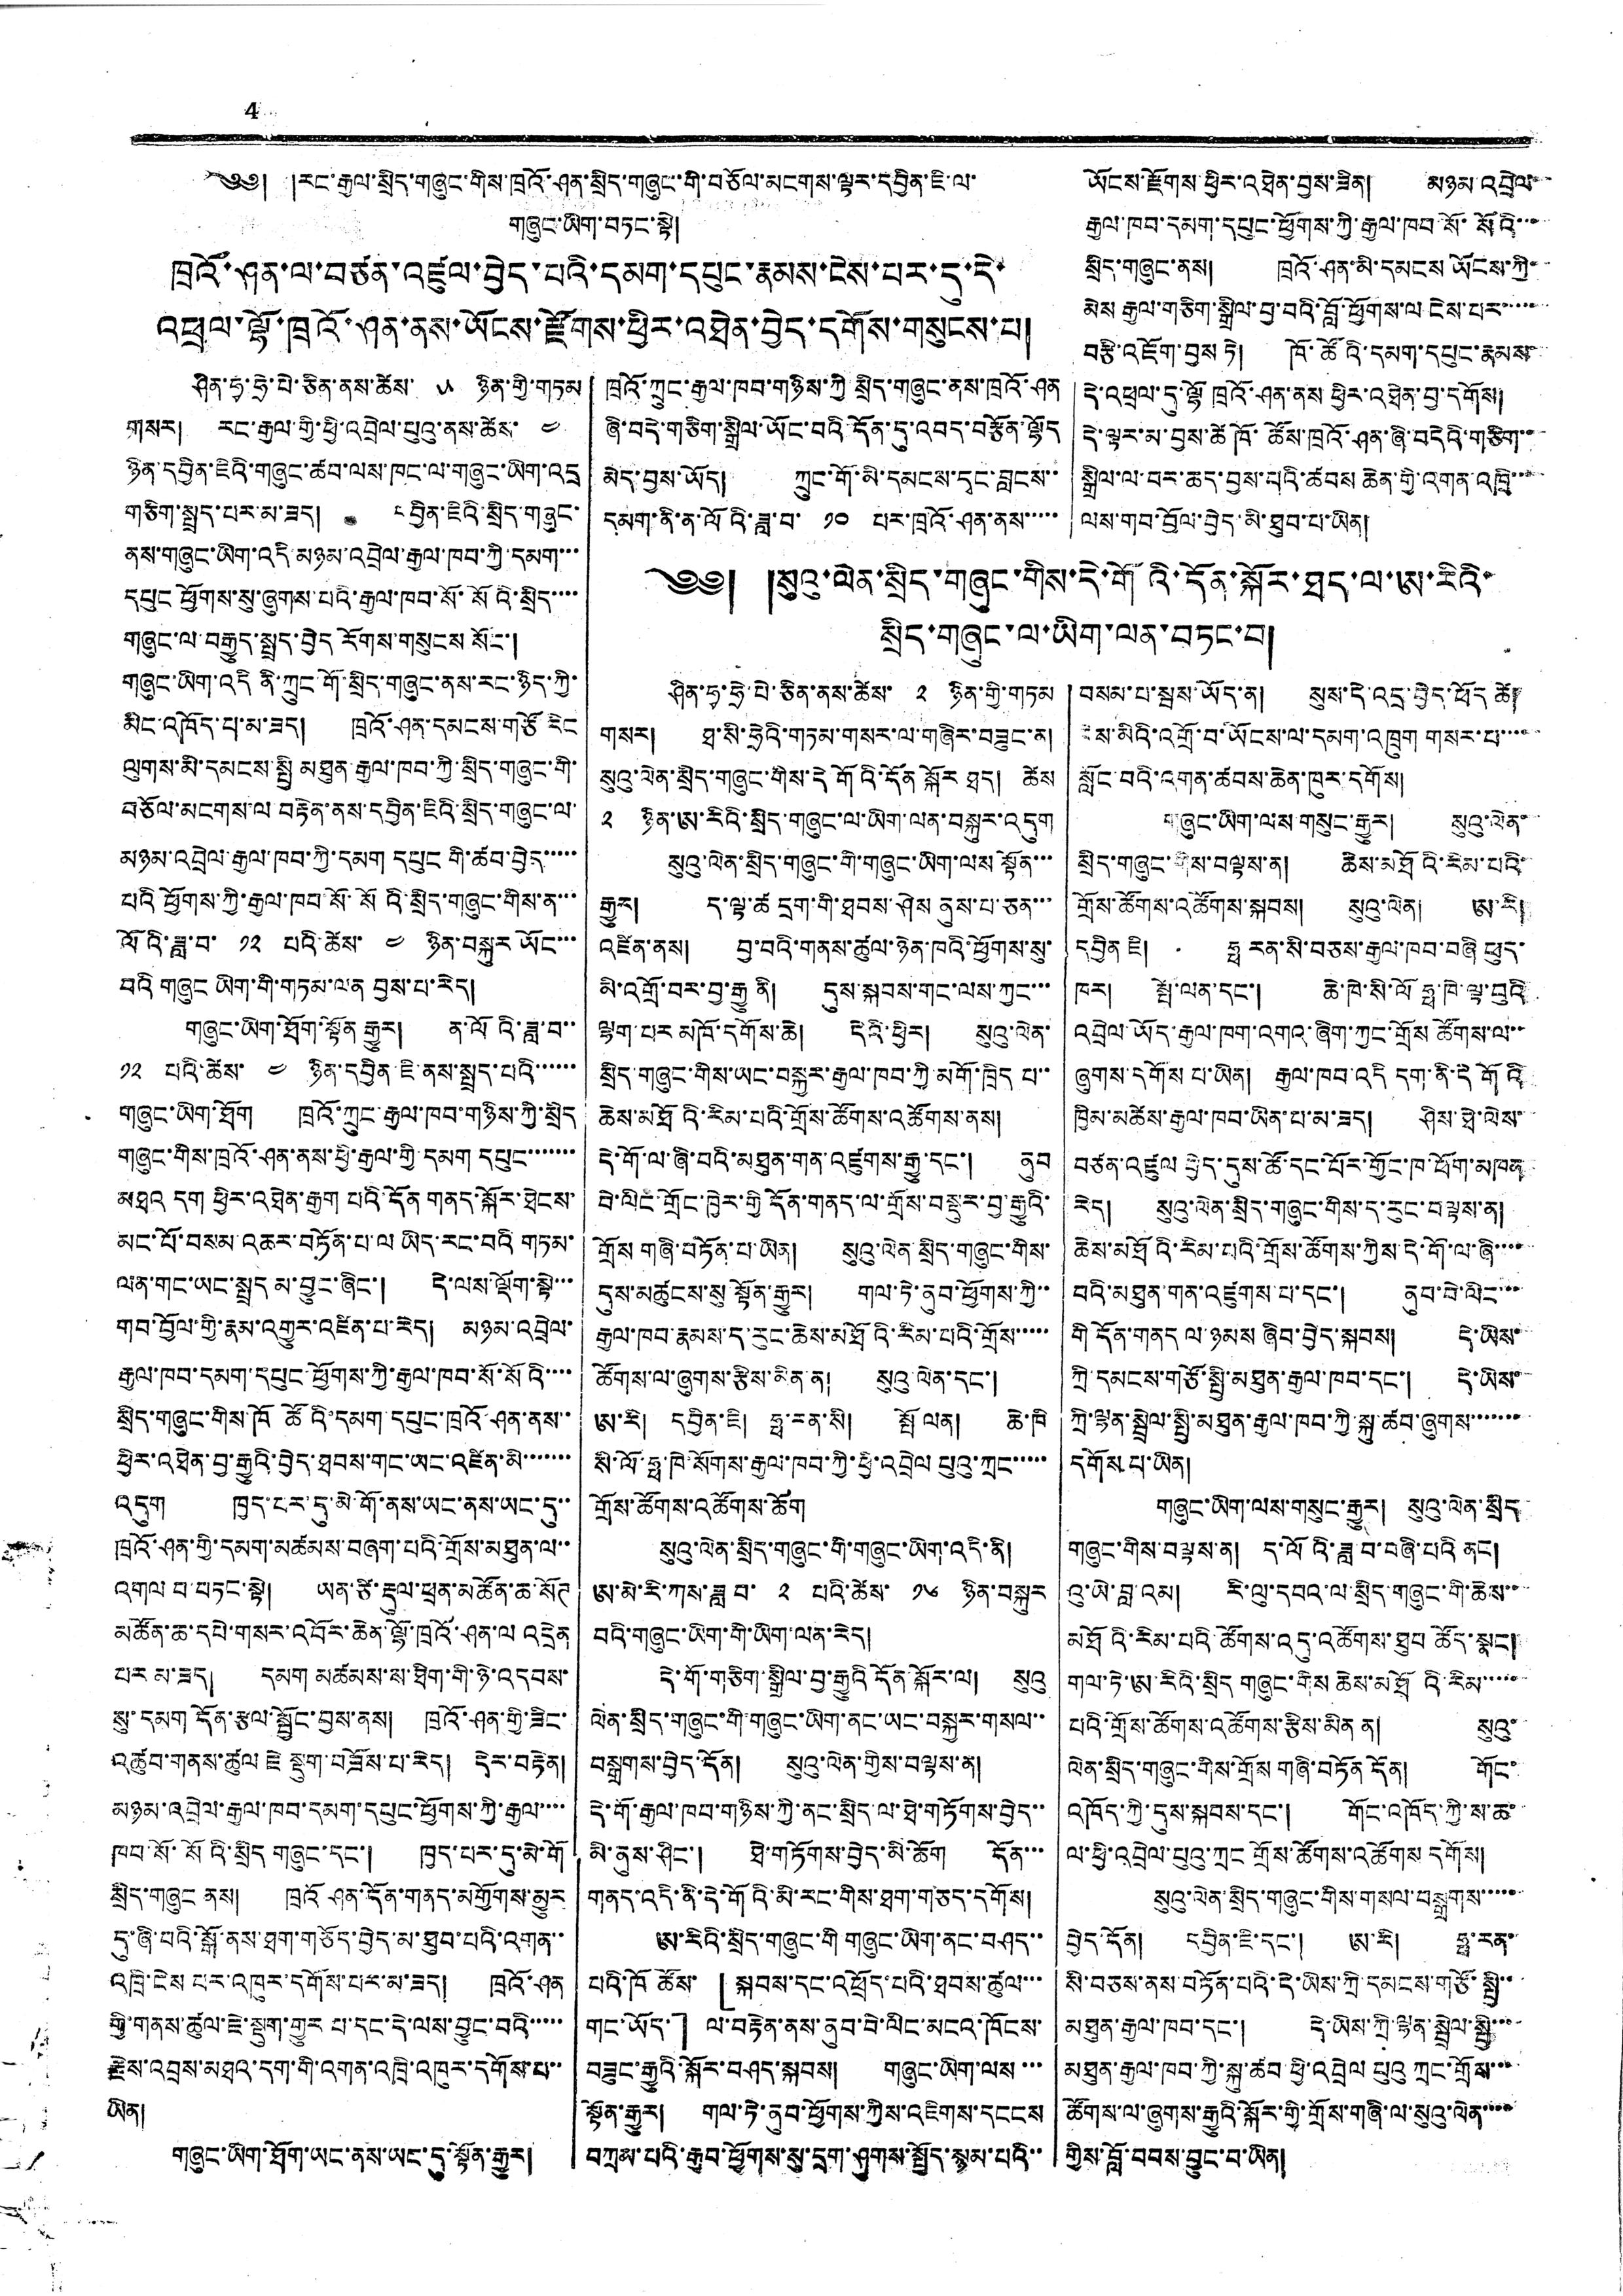4
༄༅། །རང་རྒྱལ་སྲིད་གཞུང་གིས་ཁྲའོ་ཤན་སྲིད་གཞུང་གི་བཅོལ་མངགས་ལྟར་དབྱིན་ཇི་ལ་
གཞུང་ཡིག་བཏང་སྟེ།
ཁྲའོ་ཤན་ལ་བཙན་འཛུལ་བྱེད་པའི་དམག་དཔུང་རྣམས་ངེས་པར་དུ་དེ་
འཕྲལ་ལྷོ་ཁྲའོ་ཤན་ནས་ཡོངས་རྫོགས་ཕྱིར་འཐེན་བྱེད་དགོས་གསུངས་པ།
ཤིན་ཧྭ་ཧྲེ་པེ་ཅིན་ནས་ཚེས་ ༥ ཉིན་གྱི་གཏམ
གསར། རང་རྒྱལ་གྱི་ཕྱི་འབྲེལ་པུའུ་ནས་ཚེས་ ༤
ཉིན་དབྱིན་ཇིའི་གཞུང་ཚབ་ལས་ཁང་ལ་གཞུང་ཡིག་འདྲ
གཅིག་སྤྲད་པར་མ་ཟད། དབྱིན་ཇིའི་སྲིད་གཞུང་
ནས་གཞུང་ཡིག་འདི མཉམ་འབྲེལ་རྒྱལ་ཁབ་ཀྱི་དམག་་་
དཔུང ཕྱོགས་སུ་ཞུགས་པའི་རྒྱལ་ཁབ་སོ་སོའི་སྲིད་་་་
གཞུང་ལ་བརྒྱུད་སྤྲད་བྱེད རོགས་གསུངས སོང་།
གཞུང་ཡིག་འདི ནི་ཀྲུང་གོ་སྲིད་གཞུང་ནས་རང་ཉིད་ཀྱི་
མིང་འཁོད་པ་མ་ཟད། ཁྲའོ་ཤན་དམངས་གཙོ རིང
ལུགས་མི་དམངས་སྤྱི མཐུན་རྒྱལ་ཁབ་ཀྱི་སྲིད་གཞུང་གི་
བཅོལ་མངགས་ལ བརྟེན་ནས་དབྱིན་ཇིའི་སྲིད་གཞུང་ལ་
མཉམ་འབྲེལ་རྒྱལ་ཁབ་ཀྱི་དམག དཔུང གི་ཚབ་བྱེད་་་་་
པའི ཕྱོགས་ཀྱི་རྒྱལ་ཁབ་སོ་སོའི་སྲིད་གཞུང་གིས་ན་་་
ལོའི་ཟླ་བ་ ༡༢ པའི་ཚེས་ ༤ ཉིན་བསྐུར ཡོང་་་
བའི གཞུང ཡིག་གི་གཏམ་ལན བྱས་པ་རེད།
གཞུང་ཡིག་ཐོག་སྟོན རྒྱུར། ན་ལོའི་ཟླ་བ་་
༡༢ པའི་ཚེས་ ༤ ཉིན་དབྱིན ཇི་ནས་སྤྲད་པའི་་་་་་
གཞུང་ཡིག་ཐོག ཁྲའོ་ཀྲུང་རྒྱལ་ཁབ་གཉིས་ཀྱི་སྲིད
གཞུང་གིས་ཁྲའོ་ཤན་ནས་ཕྱི་རྒྱལ་གྱི་དམག དཔུང་་་་་་་
མཐའ དག ཕྱིར་འཐེན་རྒྱག པའི་དོན གནད་སྐོར་ཐེངས་
མང་པོ་བསམ་འཆར་བཏོན་པ་ལ ཡིད་རང་བའི གཏམ་
ལན་གང་ཡང་སྤྲད མ་བྱུང་ཞིང་། དེ་ལས་ལྡོག་སྟེ་་་
གབ་བྱོལ་གྱི་རྣམ་འགྱུར་འཛིན་པ་རེད། མཉམ་འབྲེལ་
རྒྱལ་ཁབ་དམག་དཔུང ཕྱོགས་ཀྱི་རྒྱལ་ཁབ་སོ་སོའི་་་་
སྲིད་གཞུང་གིས་ཁོ ཚོའི་དམག དཔུང་ཁྲའོ ཤན་ནས་་
ཕྱིར་འཐེན་བྱ་རྒྱུའི་བྱེད་ཐབས་གང་ཡང་འཛིན་མི་་་་་་་
འདུག ཁྱད་པར་དུ་མེ་གོ་ནས་ཡང་ནས་ཡང་དུ་་
ཁྲའོ་ཤན་གྱི་དམག་མཚམས་བཞག་པའི་གྲོས་མཐུན་ལ་་
འགལ བ བཏང་སྟེ། ཡན་ཙི་རྡུལ་ཕྲན་མཚོན་ཆ་སོཊ
མཚོན་ཆ་དཔེ་གསར་འབོར་ཆེན་ལྷོ་ཁྲའོ་ཤན་ལ འདྲེན
པར མ་ཟད། དམག མཚམས་ས་ཐིག་གི་ཉེ་འདབས་
སུ་དམག དོན་རྩལ་སྦྱོང་བྱས་ནས། ཁྲའོ་ཤན་གྱི་ཟིང་
འཚུབ་གནས་ཚུལ ཇེ སྡུག་བཟོས་པ་རེད། དེར་བརྟེན།
མཉམ་འབྲེལ་རྒྱལ་ཁབ་དམག་དཔུང་ཕྱོགས་ཀྱི་རྒྱལ་་་་
ཁབ་སོ་སོའི་སྲིད གཞུང་དང་། ཁྱད་པར་དུ་མེ་གོ
སྲིད་གཞུང ནས། ཁྲའོ ཤན་དོན་གནད་མགྱོགས་མྱུར
དུ་ཞི་བའི་སྒོ་ནས་ཐག་གཅོད་བྱེད་མ་ཐུབ་པའི་འགན་་
འཁྲི་ངེས པར་འཁུར་དགོས་པར་མ་ཟད། ཁྲའོ་ཤན
གྱི་གནས་ཚུལ་ཇེ་སྡུག་གྱུར པ་དང་དེ་ལས་བྱུང་བའི་་་་་
རྗེས་འབྲས་མཐའ་དག་གི་འགན་འཁྲི་འཁུར་དགོས་པ་་
ཡིན།
གཞུང་ཡིག་ཐོག་ཡང་ནས་ཡང་དུ་སྟོན་རྒྱུར།
ཁྲའོ་ཀྲུང་རྒྱལ་ཁབ་གཉིས་ཀྱི སྲིད་གཞུང་ནས་ཁྲའོ་ཤན
ཞི་བདེ་གཅིག་སྒྲིལ་ཡོང་བའི་དོན་དུ་འབད་བརྩོན་ལྷོད
མེད་བྱས་ཡོད། ཀྲུང་གོ་མི་དམངས་དྭང་བླངས་་
དམག་ནི་ན་ལོའི་ཟླ་བ་ ༡༠ པར་ཁྲའོ་ཤན་ནས་་་་་
ཡོངས་རྫོགས ཕྱིར་འཐེན་བྱས་ཟིན། མཉམ འབྲེལ་་
རྒྱལ་ཁབ་དམག་དཔུང་ཕྱོགས་ཀྱི་རྒྱལ་ཁབ་སོ་སོའི་་་
སྲིད་གཞུང་ནས། ཁྲའོ་ཤན་མི་དམངས ཡོངས་ཀྱི་
མེས རྒྱལ་གཅིག་སྒྲིལ་བྱ་བའི་བློ་ཕྱོགས་ལ ངེས་པར་་་་་་་
བརྩི་འཇོག་བྱས ཏེ། ཁོ་ཚོའི་དམག་དཔུང་རྣམས་་
དེ་འཕྲལ་དུ་ལྷོ ཁྲའོ་ཤན་ནས ཕྱིར་འཐེན་བྱ་དགོས།
དེ་ལྟར་མ་བྱས་ཚེ ཁོ་ཚོས་ཁྲའོ་ཤན་ཞི་བདེའི་གཅིག་་
སྒྲིལ་ལ་བར་ཆད་བྱས་པའི་ཚབས ཆེན་གྱི་འགན་འཁྲི་་་་
ལས་གབ་བྱོལ་བྱེད་མི་ཐུབ་པ་ཡིན།
༄༅། །སུའུ་ལེན་སྲིད་གཞུང་གིས་དེ་གོའི་དོན་སྐོར་ཐད་ལ་ཨ་རིའི་
སྲིད་གཞུང་ལ་ཡིག་ལན་བཏང་བ།
ཤིན་ཧྭ་ཧྲེ་པེ་ཅིན་ནས་ཚེས་ ༢ ཉིན་གྱི་གཏམ
གསར། ཐ་སི་ཧྲེའི་གཏམ་གསར་ལ་གཞིར་བཟུང་ན།
སུའུ་ལེན་སྲིད་གཞུང་གིས་དེ གོའི་དོན སྐོར ཐད། ཚེས
༢ ཉིན་ཨ་རིའི་སྲིད་གཞུང་ལ་ཡིག་ལན་བསྐུར་འདུག
སུའུ་ལེན་སྲིད་གཞུང་གི་གཞུང་ཡིག་ལས སྟོན་་་
རྒྱུར། ད་ལྟ་ཚ དྲག་གི་ཐབས་ཤེས ནུས་པ་ཅན་་་
འཛིན་ནས། བྱ་བའི་གནས་ཚུལ་ཉེན་ཁའི་ཕྱོགས་སུ་
མི་འགྲོ་བར་བྱ་རྒྱུ ནི། དུས་སྐབས་གང་ལས་ཀྱང་་་
ལྷག་པར མཁོ་དགོས་ཆེ། དེའི་ཕྱིར། སུའུ་ལེན་
སྲིད་གཞུང་གིས་ཡང་བསྐྱར་རྒྱལ་ཁབ་ཀྱི་མགོ་ཁྲིད པ་་
ཆེས་མཐོའི་རིམ་པའི་གྲོས་ཚོགས་འཚོགས་ནས།
དེ་གོ་ལ་ཞི་བའི་མཐུན་གན་འཛུགས་རྒྱུ་དང་། ནུབ
བེ་ལིང་གྲོང་ཁྱེར་གྱི དོན་གནད་ལ་གྲོས་བསྡུར་བྱ་རྒྱུའི་
གྲོས གཞི་བཏོན་པ་ཡིན། སུའུ་ལེན་སྲིད་གཞུང་གིས་
དུས་མཚུངས་སུ སྟོན་རྒྱུར། གལ་ཏེ་ནུབ་ཕྱགས་ཀྱི་་
རྒྱལ་ཁབ་རྣམས་ད་རུང་ཆེས་མཐོའི་རིམ་པའི་གྲོས་་་་་
ཚོགས་ལ་ཞུགས་རྩིས་མིན་ན། སུའུ ལེན་དང་།
ཨ་རི། དབྱིན་ཇི། ཧྥ་རན་སི། སྤོ ལན། ཆེ་ཁི
སི་ལོ་ཧྥ་ཁེ་སོགས་རྒྱལ་ཁབ་ཀྱི་ཕྱི་འབྲེལ པུའུ་ཀྲང་་་་་
གྲོས་ཚོགས་འཚོགས་ཆོག
སུའུ་ལེན་སྲིད་གཞུང་གི་གཞུང་ཡིག་འདི་ནི།
ཨ་མེ་རི་ཀས་ཟླ་བ་ ༢ པའི་ཚེས་ ༡༦ ཉིན་བསྐུར
བའི་གཞུང་ཡིག་གི་ཡིག་ལན་རེད།
དེ་གོ་གཅིག་སྒྲིལ་བྱ་རྒྱུའི དོན་སྐོར་ལ། སུའུ
ལེན་སྲིད་གཞུང་གི་གཞུང་ཡིག་ནང་ཡང་བསྐྱར་གསལ་་
བསྒྲགས་བྱེད་དོན། སུའུ་ལེན་གྱིས་བལྟས་ན།
དེ་གོ་རྒྱལ་ཁབ་གཉིས་ཀྱི་ནང་སྲིད་ལ་ཐེ་གཏོགས་བྱེད་་
མི་ནུས་ཤིང་། ཐེ་གཏོགས་བྱེད་མི་ཆོག དོན་་་
གནད་འདི་ནི་དེ་གོའི་མི་རང་གིས་ཐག་གཅད་དགོས།
ཨ་རིའི་སྲིད་གཞུང་གི གཞུང་ཡིག་ནང་བཤད་་
པའི་ཁོ ཚོས་ 「སྐབས་དནག་འཕྲོད་པའི་ཐབས་ཚུལ་་་
གང་ཡོད་」 ལ་བརྟེན་ནས་ནུབ་བེ་ལིང་མངའ་ཁོངས་
བཟུང་རྒྱུའི་སྐོར་བཤད་སྐབས། གཞུང་ཡིག་ལས་་་
སྟོན་རྒྱུར། གལ་ཏེ་ནུབ་ཕྱོགས་ཀྱིས་འཇིགས་དངངས
བཀྲམ་པའི་རྒྱབ་ཕྱོགས་སུ་དྲག་ཤུགས་སྤྱོད་སྙམ་པའི་་
བསམ་པ་སྦས་ཡོད་ན། སུས་དེ་འདྲ་བྱེད་ཕོད ཚེ།
ངེས་མིའི་འགྲོ་བ་ཡོངས་ལ་དམག་འཁྲུག གསར་པ་་་་
སློང་བའི་འགན་ཚབས་ཆེན་ཁུར་དགོས།
གཞུང་ཡིག་ལས་གསུང་རྒྱུར། སུའུ་ལེན་
སྲིད་གཞུང་གིས་བལྟས་ན། ཆེས་མཐོའི་རིམ་པའི་
གྲོས་ཚོགས་འཚོགས་སྐབས། སུའུ་ལེན། ཨ་རི།
དབྱིན ཇི། ཧྥ རན་སི་བཅས་རྒྱལ་ཁབ་བཞི ཕུད་
ཁར། སྤོ་ལན་དང་། ཆེ་ཁེ་སི་ལོ ཧྥ་ཁེ་ལྟ་བུའི
འབྲེལ་ཡོད་རྒྱལ་ཁག་འགའ་ཞིག་ཀྱང་གྲོས ཚོགས་ལ་་
ཞུགས་དགོས པ་ཡིན། རྒྱལ་ཁབ་འདི དག་ནི་དེ གོའི
ཁྱིམ་མཚེས་རྒྱལ་ཁབ་ཡིན་པ་མ་ཟད། ཤིས་ཐེ་ལེས་
བཙན་འཛུལ བྱེད་དུས་ཚོ་དང་པོར་གྱོང་ཁ་ཕོག་མཁན
རེད། སུའུ་ལེན་སྲིད་གཞུང་གིས་ད་རུང་བལྟས་ན།
ཆེས་མཐོའི་རིམ་པའི་གྲོས་ཚོགས་ཀྱིས་དེ་གོ་ལ་ཞི་་་་
བའི་མཐུན་གན་འཛུགས་པ་དང་། ནུབ་བེ་ལིང་་་
གི དོན་གནད ལ་ཉམས ཞིབ་བྱེད་སྐབས། དེ་ཡིས་
ཀྲི་དམངས་གཙོ་སྤྱི་མཐུན་རྒྱལ་ཁབ་དང་། དེ་ཡིས་
ཀྲི་ལྷན་སྦྲེལ་སྤྱི་མཐུན་རྒྱལ་ཁབ་ཀྱི་སྐུ་ཚབ་ཞུགས་་་་་་་
དགོས པ་ཡིན།
གཞུང་ཡིག་ལས་གསུང་རྒྱུར། སུའུ་ལེན་སྲིད
གཞུང་གིས་བལྟས་ན། ད་ལོའི་ཟླ་བ་བཞི་པའི ནང།
འུ་ཡེ་བླ་འམ། རི་ལུ་དབའ་ལ་སྲིད་གཞུང་གི་ཆེས་་
མཐོའི་རིམ་པའི་ཚོགས་འདུ་འཚོགས་ཐུབ ཚོད་སྣང།
གལ་ཏེ་ཨ་རིའི་སྲིད གཞུང་གིས ཆེས་མཐོའི་རིམ་་་་་
པའི་གྲོས་ཚོགས་འཚོགས་རྩིས་མིན ན། སུའུ་
ལེན་སྲིད་གཞུང་གིས་གྲོས གཞི་བཏོན དོན། གོང་
འཁོད་ཀྱི་དུས་སྐབས་དང་། གོང་འཁོད་ཀྱི་ས་ཆ་
ལ་ཕྱི་འབྲེལ་པུའུ་ཀྲང གྲོས་ཚོགས་འཚོགས དགོས།
སུའུ་ལེན་སྲིད་གཞུང་གིས་གསལ་བསྒྲགས་་་་་
བྱེད་དོན། དབྱིན་ཇི་དང་། ཨ་རི། ཧྥ་རན་
སི་བཅས་ནས་བཏོན་པའི་དེ་ཡིས་ཀྲི་དམངས་གཙོ་སྤྱི་་
མཐུན་རྒྱལ་ཁབ་དང་། དེ་ཡིས་ཀྲི་ལྷན་སྦྲེལ་སྤྱི་་་
མཐུན་རྒྱལ་ཁབ་ཀྱི་སྐུ་ཚབ་ཕྱི་འབྲེལ པུའུ ཀྲང་གྲོས་་་
ཚོགས་ལ་ཞུགས་རྒྱུའི་སྐོར་གྱི་གྲོས་གཞི་ལ་སུའུ་ལེན་་་་
གྱིས་བློ་བབས་བྱུང་བ་ཡིན།
